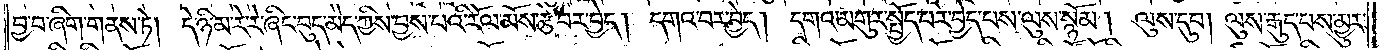བྱ་བ་ཞིག་གནས་ཏེ། དེ་ཉི་མ་རེ་རེ་ཞིང་བུད་མེད་ཀྱིས་བྱས་པའི་རོལ་མོས་རྩེ་བར་བྱེད། དགའ་བར་བྱེད། དགའ་མགུར་སྤྱོད་པར་བྱེད་པས་ལུས་སྙོམ། ལུས་དུབ། ལུས་རྒུད་པས་མྱུར་
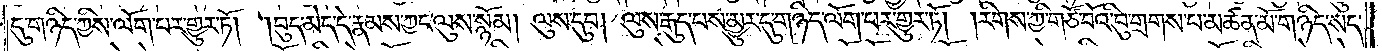དུ་གཉིད་ཀྱིས་ལོག་པར་གྱུར་ཏོ། །བུད་མེད་དེ་རྣམས་ཀྱང་ལུས་སྙོམ། ལུས་དུབ། ལུས་རྒུད་པས་མྱུར་དུ་གཉིད་ལོག་པར་གྱུར་ཏོ། །རིགས་ཀྱི་གཙོ་བོའི་བུ་གྲགས་པ་མཚན་མོ་གཉིད་སད་
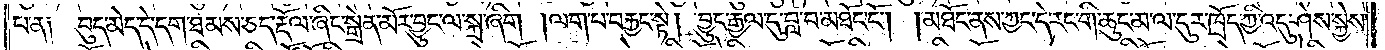པ་ན། བུད་མེད་དེ་དག་ཐམས་ཅད་རྡོལ་ཞིང་སྒྲེན་མོར་བྱུང་ལ་སྐྲ་ཞིག །ལག་པ་བརྐྱང་སྟེ། བྱུང་རྒྱལ་དུ་བླ་བ་མཐོང་ངོ༌། །མཐོང་ནས་ཀྱང་དེ་རང་གི་ཆུང་མ་ལ་དུར་ཁྲོད་ཀྱི་འདུ་ཤེས་སྐྱེས་
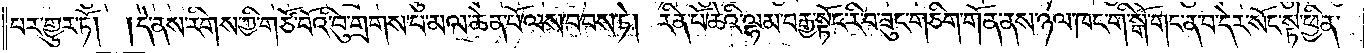པར་གྱུར་ཏོ། །དེ་ནས་རིགས་ཀྱི་གཙོ་བོའི་བུ་གྲགས་པ་མལ་ཆེན་པོ་ལས་བབས་ཏེ། རིན་པོ་ཆེའི་ལྷམ་བརྒྱ་སྟོང་རི་བ་ཟུང་གཅིག་གོན་ནས་ཉལ་ཁང་གི་སྒོ་གང་ན་བ་དེར་སོང་སྟེ་ཕྱིན་
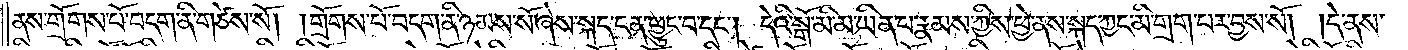ནས་གྲོགས་པོ་བདག་ནི་གཙེས་སོ། །གྲོགས་པོ་བདག་ནི་ཉམས་སོ་ཞེས་སྐད་ངན་ཕྱུང་བ་དང༌། དེའི་སྒོ་མི་མ་ཡིན་པ་རྣམས་ཀྱིས་ཕྱེ་ནས་སྐད་ཀྱང་མི་གྲག་པར་བྱས་སོ། །དེ་ནས་
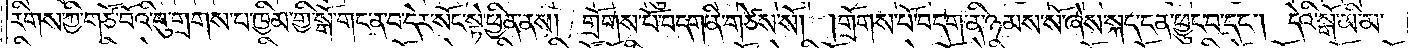རིགས་ཀྱི་གཙོ་བོའི་བུ་གྲགས་པ་ཁྱིམ་གྱི་སྒོ་གང་ན་བ་དེར་སོང་སྟེ་ཕྱིན་ནས། གྲོགས་པོ་བདག་ནི་གཙེས་སོ། །གྲོགས་པོ་བདག་ནི་ཉམས་སོ་ཞེས་སྐད་ངན་ཕྱུང་བ་དང༌། དེའི་སྒོ་མི་མ་
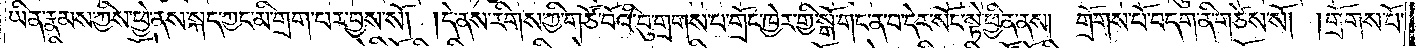ཡིན་རྣམས་ཀྱིས་ཕྱེ་ནས་སྐད་ཀྱང་མི་གྲག་པར་བྱས་སོ། །དེ་ནས་རིགས་ཀྱི་གཙོ་བོའི་བུ་གྲགས་པ་གྲོང་ཁྱེར་གྱི་སྒོ་གང་ན་བ་དེར་སོང་སྟེ་ཕྱིན་ནས། གྲོགས་པོ་བདག་ནི་གཙེས་སོ། །གྲོགས་པོ་
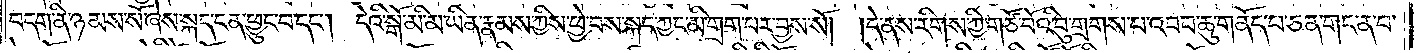བདག་ནི་ཉམས་སོ་ཞེས་སྐད་ངན་ཕྱུང་བ་དང༌། དེའི་སྒོ་མི་མ་ཡིན་རྣམས་ཀྱིས་ཕྱེ་བས་སྐད་ཀྱང་མི་གྲག་པར་བྱས་སོ། །དེ་ནས་རིགས་ཀྱི་གཙོ་བོའི་བུ་གྲགས་པ་འབབ་ཆུ་གནོད་པ་ཅན་གང་ན་བ་
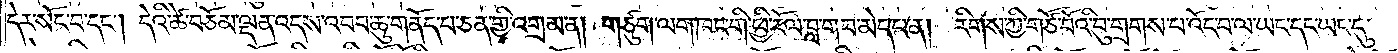དེར་སོང་བ་དང༌། དེའི་ཚེ་བཅོམ་ལྡན་འདས་འབབ་ཆུ་གནོད་པ་ཅན་གྱི་འགྲམ་ན། གཙུག་ལག་ཁང་གི་ཕྱི་རོལ་བླ་གབ་མེད་པ་ན། རིགས་ཀྱི་གཙོ་བོའི་བུ་གྲགས་པ་འོང་བ་ལ་ཡང་དང་ཡང་དུ་
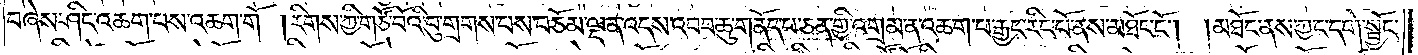བཞེས་ཤིང་འཆག་པས་འཆག་གོ །རིགས་ཀྱི་གཙོ་བོའི་བུ་གྲགས་པས་བཅོམ་ལྡན་འདས་འབབ་ཆུ་གནོད་པ་ཅན་གྱི་འགྲམ་ན་འཆག་པ་རྒྱང་རིང་པོ་ནས་མཐོང་ངོ༌། །མཐོང་ནས་ཀྱང་དགེ་སྦྱོང་
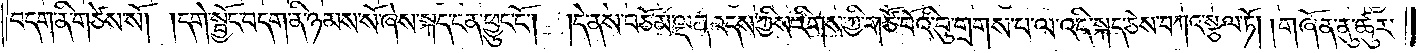བདག་ནི་གཙེས་སོ། །དགེ་སྦྱོང་བདག་ནི་ཉམས་སོ་ཞེས་སྐད་ངན་ཕྱུང་ངོ༌། །དེ་ནས་བཅོམ་ལྡན་འདས་ཀྱིས་རིགས་ཀྱི་གཙོ་བོའི་བུ་གྲགས་པ་ལ་འདི་སྐད་ཅེས་བཀའ་སྩལ་ཏོ། །གཞོན་ནུ་ཚུར་
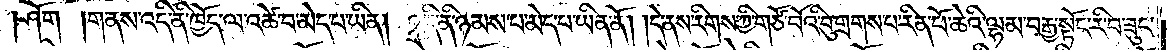ཤོག །གནས་འདི་ནི་ཁྱོད་ལ་འཚེ་བ་མེད་པ་ཡིན། འདི་ནི་ཉམས་པ་མེད་པ་ཡིན་ནོ། །དེ་ནས་རིགས་ཀྱི་གཙོ་བོའི་བུ་གྲགས་པ་རིན་པོ་ཆེའི་ལྷམ་བརྒྱ་སྟོང་རི་བ་ཟུང་
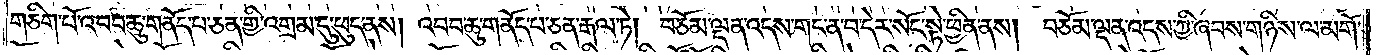གཅིག་པོ་འབབ་ཆུ་གནོད་པ་ཅན་གྱི་འགྲམ་དུ་ཕུད་ནས། འབབ་ཆུ་གནོད་པ་ཅན་རྒལ་ཏེ། བཅོམ་ལྡན་འདས་གང་ན་བ་དེར་སོང་སྟེ་ཕྱིན་ནས། བཅོམ་ལྡན་འདས་ཀྱི་ཞབས་གཉིས་ལ་མགོ་
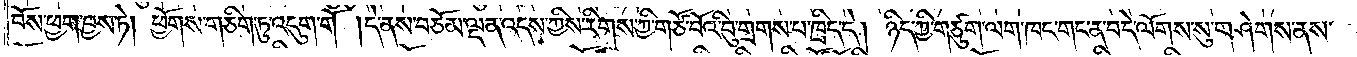བོས་ཕྱག་བྱས་ཏེ། ཕྱོགས་གཅིག་ཏུ་འདུག་གོ །དེ་ནས་བཅོམ་ལྡན་འདས་ཀྱིས་རིགས་ཀྱི་གཙོ་བོའི་བུ་གྲགས་པ་ཁྲིད་དེ། ཉིད་ཀྱི་གཙུག་ལག་ཁང་གང་ན་བ་དེ་ལོགས་སུ་གཤེགས་ནས་
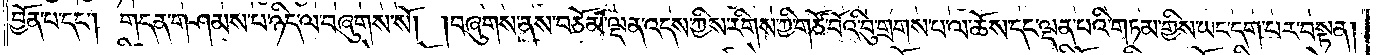བྱོན་པ་དང༌། གདན་གཤམས་པ་ཉིད་ལ་བཞུགས་སོ། །བཞུགས་ནས་བཅོམ་ལྡན་འདས་ཀྱིས་རིགས་ཀྱི་གཙོ་བོའི་བུ་གྲགས་པ་ལ་ཆོས་དང་ལྡན་པའི་གཏམ་གྱིས་ཡང་དག་པར་བསྟན།
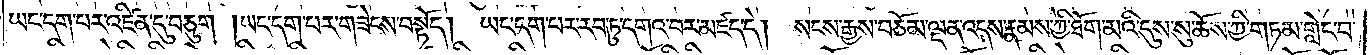ཡང་དག་པར་འཛིན་དུ་བཅུག །ཡང་དག་པར་གཟེངས་བསྟོད། ཡང་དག་པར་རབ་ཏུ་དགའ་བར་མཛད་དེ། སངས་རྒྱས་བཅོམ་ལྡན་འདས་རྣམས་ཀྱི་ཐོག་མའི་དུས་སུ་ཆོས་ཀྱི་གཏམ་གླེང་བ་
